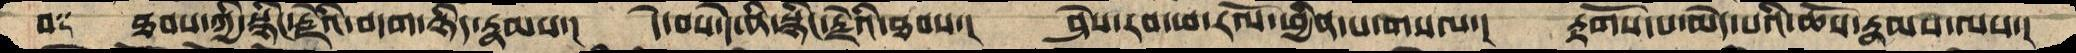བ༑   ཐབས་ཀྱི་སྙིང་རྗེའི་བདག་ཉིད་རྣམས་།  དེ་བས་དེ་ནི་སྙིང་རྗེའི་ཐབས་།  ཤེས་རབ་ཕ་རོལ་ཕྱིན་པ་གསལ་།  རྟོགས་པ་མེད་པའི་ཆོས་རྣམས་ལས་།
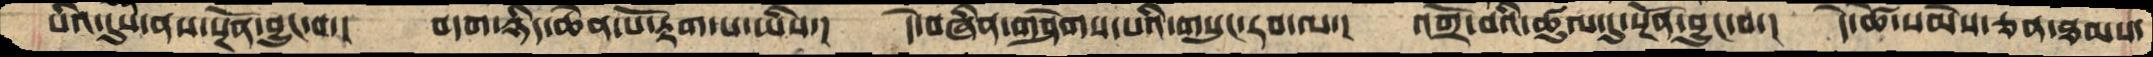པའི་དུས་ནས་སྔོན་བྱུང་བ་།  བདག་ཉིད་ཆེན་པོ་རྟག་པ་ཡིས་།  དེ་བཞིན་གཤེགས་པའི་གསུང་རབ་ལ་།  འགྲོ་བའི་ཚུལ་དུ་སྔོན་བྱུང་བ་།  དེ་ཚེ་སེམས་ཅན་ཐམས་
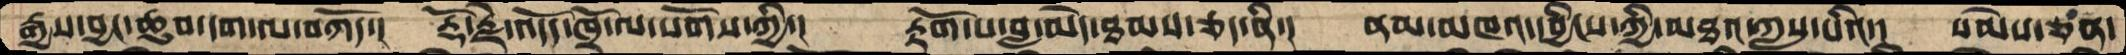རྒྱས་བྱང་ཆུབ་དག་ལ་བཀོད་།  རྡོ་རྗེ་འདོད་ཁྲོ་ལ་སོགས་ཀྱི་།  རྟོག་པ་བླ་མེད་ཐམས་ཅད་ནི་།  ནམ་མཁའ་དབྱིངས་ཀྱི་མཐའ་ཀླས་པའི་།  སེམས་ཅན་
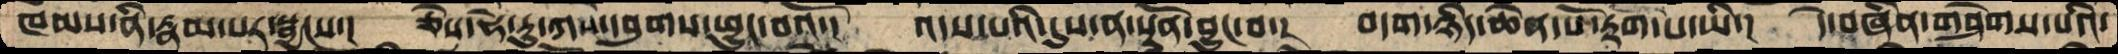ཁམས་ནི་རྣམ་པར་སྦྱངས་།  ཅེས་ཧེ་རུ་ཀས་དབུགས་ཕྱུང་བའོ་།  འདས་པའི་དུས་ན་སྔོན་བྱུང་བ་།  བདག་ཉིད་ཆེན་པོ་རྟག་པ་ཡི་།  དེ་བཞིན་གཤེགས་པའི་
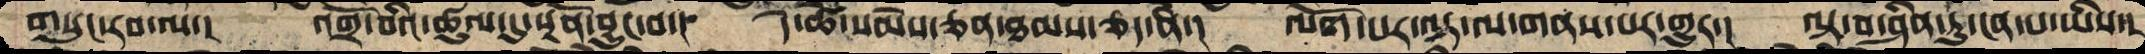གསུང་རབ་ལ་།  འགྲོ་བའི་ཚུལ་དུ་སྔོན་བྱུང་བ་།  དེ་ཚེ་སེམས་ཅན་ཐམས་ཅད་ནི་།  ལོག་པར་ལྟ་ལ་གནས་པར་གྱུར་།  ལྟ་བ་ཤིན་ཏུ་ངན་པ་ཡིས་།
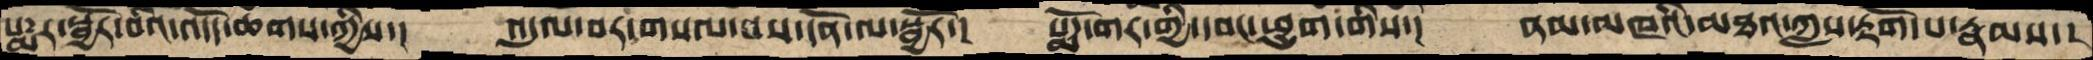པདྨར་སྦྱོར་བའི་འདོད་ཆགས་ཀྱིས་།  འདུལ་བར་གསལ་བས་དོན་ལ་སྦྱོར་།  པདྨོ་གར་གྱི་དབང་ཕྱུག་གིས་།  ནམ་མཁའི་མཐའ་ཀླས་རྟོག་པ་རྣམས་།
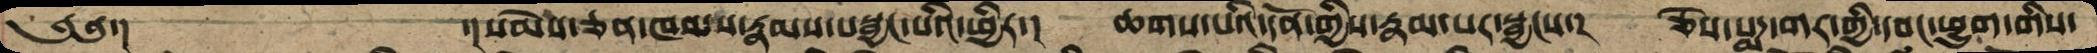༄༅་།             ་།སེམས་ཅན་ཁམས་རྣམས་པསྦྱང་པའི་ཕྱིར་།  ཆགས་པའི་དོན་གྱིས་རྣམ་པར་སྦྱངས་།  ཅེས་པདྨ་གར་གྱི་དབང་ཕྱུག་གིས་
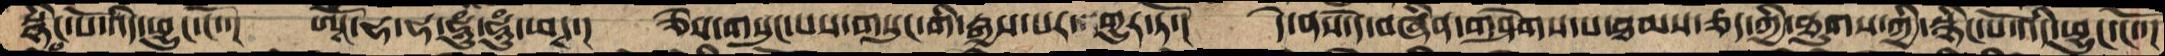སྙིང་པོ་འདི་ཕྱུང་ངོ་་།  ཨཱོཾ་ཧ་ཧ་ཧཱུཾ་ཧཱུཾ་ཕཊ་།  ཅེས་གསུང་པས་གསུང་གི་རྒྱས་པར་འགྱུར་ཏོ་།  དེ་ནས་དེ་བཞིན་གཤེགས་པ་ཐམས་ཅད་ཀྱི་ཐུགས་ཀྱི་སྙིང་པོ་འདི་ཕྱུང་ངོ་་།
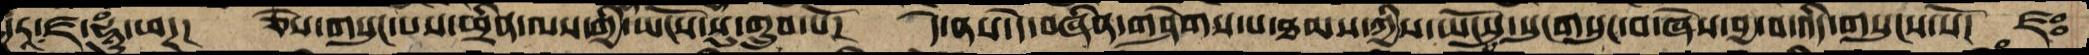་རཱ་ཛ་ཧཱུཾ་ཕཊ།  ཅེས་གསུངས་པས་ཕྲིན་ལས་གྱི་ཡོངས་སུ་གྲུབ་པོ།  དེ་ནས་དེ་བཞིན་གཤེགས་པ་ཐམས་ཀྱིས་ཡོངས་སུ་གསུང་བ་ཞེས་བྱ་བ་འདི་གསུངས་སོ།  ཛཿ
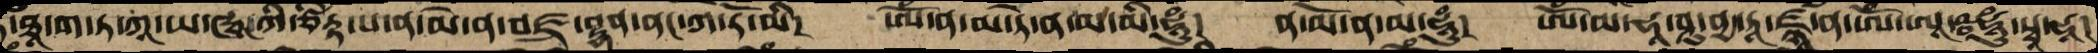་ཐ་ག་ཏ་ཀཱ་ཡ་ཝཱ་ཀི་ཙིརྟ་པ་ན་མེ་ན་བཛྲ་བྷན་ནང་ཀ་རོ་མི་།  ཨོཾ་ན་མ་ཏེ་ན་མ་མི་ཧཱུཾ།  ན་མོ་ན་མ་ཧཱུཾ།  ཨོཾ་མ་ཧཱ་ཤུ་ནྱ་ཏཱ་ཛྙཱ་ན་ཨོཾ་ཨཱཿཧཱུཾ་སྭ་ཧཱ།
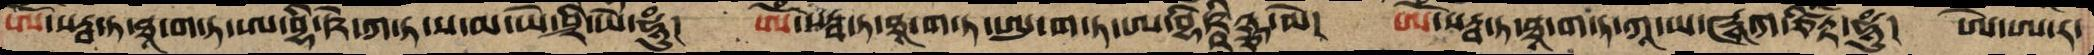ཨོཾ་སརྦ་ཏ་ཐཱ་ག་ཏ་ཨ་བྷི་ཥེ་ཀ་ཏ་ས་མ་ཡེ་ཤྲི་ཡེ་ཧཱུཾ།  ཨོཾ་སརྦ་ཏ་ཐཱ་ག་ཏ་ཨུ་ག་ཏཨ་བྷིཥྵིཉྩམེ།  ཨོཾ་སརྦ་ཏ་ཐཱ་ག་ཏ་ཀཱ་ཡ་ཝཱཀ་ཙིརྟ་ཧཱུཾ།  ཨེ་ཨ་ར
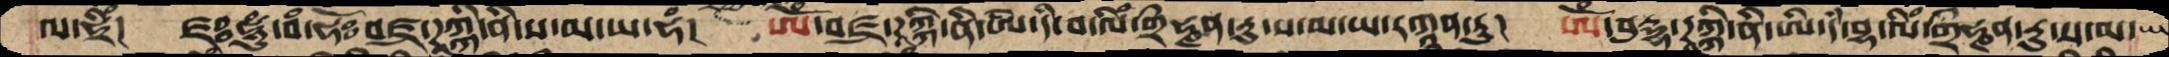ལ་ཧྲིཾ།  ཛཿཧཱུཾ་བཾ་ཧོཿབཛྲ་ཌཱཀྐི་ནི་ས་མ་ཡ་ཧཾ།  ཨོཾ་བཛྲ་ཌཱཀྐི་ནི་ཨི་དཾ་བ་ལིཾ་གྲྀ་ཧྑན་རུ་ས་མ་ཡ་རཀྙན་ཏུ།  ཨོཾ་བུདྷ་ཌཱཀྐི་ནི་ཨི་དཾ་བྷ་ལིཾ་གྲྀ་ཧྑན་རུ་ས་མ་ཡ
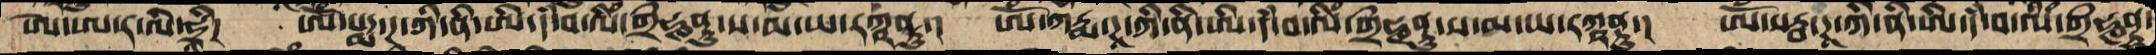ཨེ་ཨ་ར་ལི་ཧྲཱི།  ཨོཾ་པདྨ་ཌཱ་ཀི་ནི་ཨེ་དཾ་བ་ལིཾ་གྲྀཧྞནྟུ་ས་མ་ཡ་རཀྵནྟུ་།  ཨོཾ་ཀརྨ་ཌཱ་ཀི་ནི་ཨི་དཾ་བ་ལིཾ་གྲྀཧྞནྟུ་ས་མ་ཡ་རཀྵནྟུ།  ཨོཾ་སརྦ་ཌཱ་ཀི་ནི་ཨི་དཾ་བ་ལིཾ་གྲྀཧྞནྟུ་
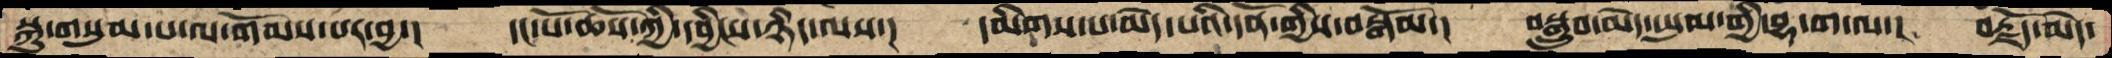སྐུ་གསུམ་ས་ལ་གོམས་པར་བྱ་།  དང་པོ་ཆོས་ཀྱི་དབྱིངས་ཉིད་ལས་།  དམིགས་པ་མེད་པའི་དོན་གྱིས་བསྒོམ་།  བསྒྲུབ་མེད་ཡུལ་གྱི་བྷ་ག་ལ་།  བརྗོད་མེད་
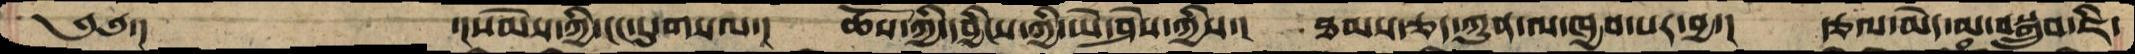༄༅་།            ་།་སེམས་ཀྱི་ངང་དུ་གསལ་།  ཆོས་ཀྱི་དབྱིངས་ཀྱི་ཡེ་ཤེས་ཀྱིས་།  ཐམས་ཅད་ཀུན་ལ་ཁྱབ་པར་བྱ་།  རྩལ་མེད་མ་བསྒྲུབ་ཇི་
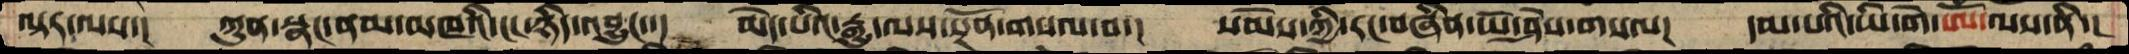ལྟར་ལས་།  ཀུན་སྣང་ནམ་མཁའི་ངང་ཉིད་འབྱུང་་།  མེད་པའི་རྒྱུ་ལས་སྔོན་གསལ་བ་།  སེམས་ཀྱི་རང་བཞིན་ཡེ་ཤེས་གསལ་།  དམ་པའི་ཡི་གེ་ཨོཾ་ལས་ནི་།
